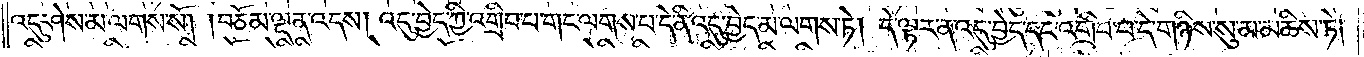འདུ་ཤེས་མ་ལགས་སོ། །བཅོམ་ལྡན་འདས། འདུ་བྱེད་ཀྱི་འགྲིབ་པ་གང་ལགས་པ་དེ་ནི་འདུ་བྱེད་མ་ལགས་ཏེ། དེ་ལྟར་ན་འདུ་བྱེད་དང་འགྲིབ་པ་དེ་གཉིས་སུ་མ་མཆིས་ཏེ་
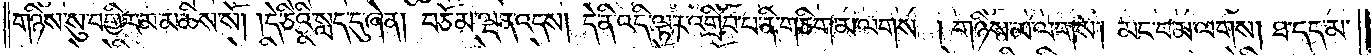གཉིས་སུ་བགྱིར་མ་མཆིས་སོ། །དེ་ཅིའི་སླད་དུ་ཞེ་ན། བཅོམ་ལྡན་འདས། དེ་ནི་འདི་ལྟར་འགྲིབ་པ་ནི་གཅིག་མ་ལགས། གཉིས་མ་ལགས། མང་བ་མ་ལགས། ཐ་དད་མ་
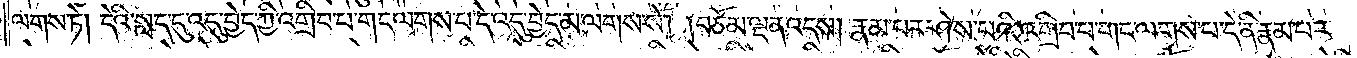ལགས་ཏེ། དེའི་སླད་དུ་འདུ་བྱེད་ཀྱི་འགྲིབ་པ་གང་ལགས་པ་དེ་འདུ་བྱེད་མ་ལགས་སོ། །བཅོམ་ལྡན་འདས། རྣམ་པར་ཤེས་པའི་འགྲིབ་པ་གང་ལགས་པ་དེ་ནི་རྣམ་པར་
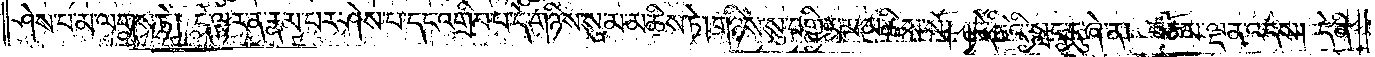ཤེས་པ་མ་ལགས་ཏེ། དེ་ལྟར་ན་རྣམ་པར་ཤེས་པ་དང་འགྲིབ་པ་དེ་གཉིས་སུ་མ་མཆིས་ཏེ། གཉིས་སུ་བགྱིར་མ་མཆིས་སོ། །དེ་ཅིའི་སླད་དུ་ཞེ་ན། བཅོམ་ལྡན་འདས། དེ་ནི་
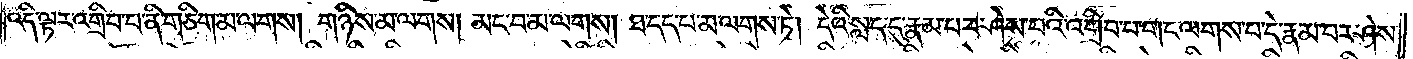འདི་ལྟར་འགྲིབ་པ་ནི་གཅིག་མ་ལགས། གཉིས་མ་ལགས། མང་བ་མ་ལགས། ཐ་དད་པ་མ་ལགས་ཏེ། དེའི་སླད་དུ་རྣམ་པར་ཤེས་པའི་འགྲིབ་པ་གང་ལགས་པ་དེ་རྣམ་པར་ཤེས་
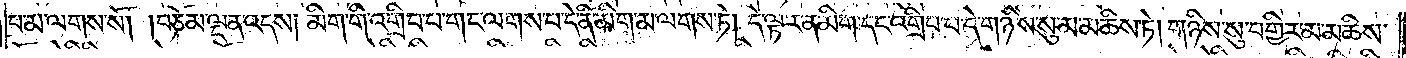པ་མ་ལགས་སོ། །བཅོམ་ལྡན་འདས། མིག་གི་འགྲིབ་པ་གང་ལགས་པ་དེ་ནི་མིག་མ་ལགས་ཏེ། དེ་ལྟར་ན་མིག་དང་འགྲིབ་པ་དེ་གཉིས་སུ་མ་མཆིས་ཏེ། གཉིས་སུ་བགྱིར་མ་མཆིས་
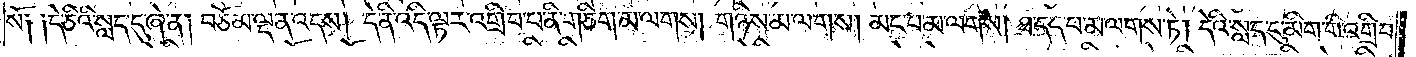སོ༑ ༑དེ་ཅིའི་སླད་དུ་ཞེ་ན། བཅོམ་ལྡན་འདས། དེ་ནི་འདི་ལྟར་འགྲིབ་པ་ནི་གཅིག་མ་ལགས། གཉིས་མ་ལགས། མང་བ་མ་ལགས། ཐ་དད་པ་མ་ལགས་ཏེ། དེའི་སླད་དུ་མིག་གི་འགྲིབ་
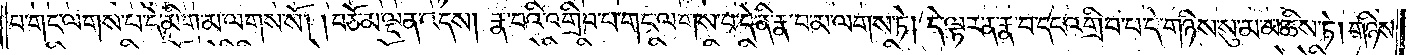པ་གང་ལགས་པ་དེ་མིག་མ་ལགས་སོ། །བཅོམ་ལྡན་འདས། རྣ་བའི་འགྲིབ་པ་གང་ལགས་པ་དེ་ནི་རྣ་བ་མ་ལགས་ཏེ། དེ་ལྟར་ན་རྣ་བ་དང་འགྲིབ་པ་དེ་གཉིས་སུ་མ་མཆིས་ཏེ། གཉིས་
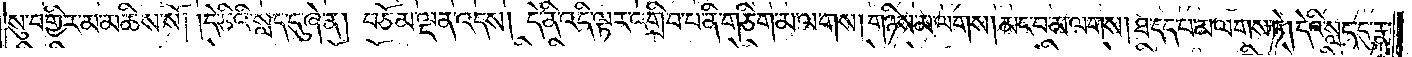སུ་བགྱིར་མ་མཆིས་སོ། །དེ་ཅིའི་སླད་དུ་ཞེ་ན། བཅོམ་ལྡན་འདས། དེ་ནི་འདི་ལྟར་འགྲིབ་པ་ནི་གཅིག་མ་ལགས། གཉིས་མ་ལགས། མང་བ་མ་ལགས། ཐ་དད་པ་མ་ལགས་ཏེ། དེའི་སླད་དུ་རྣ་
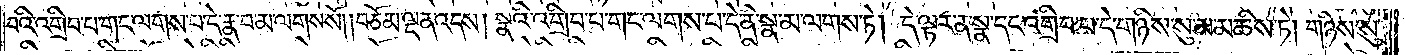བའི་འགྲིབ་པ་གང་ལགས་པ་དེ་རྣ་བ་མ་ལགས་སོ། །བཅོམ་ལྡན་འདས། སྣའི་འགྲིབ་པ་གང་ལགས་པ་དེ་ནི་སྣ་མ་ལགས་ཏེ། དེ་ལྟར་ན་སྣ་དང་འགྲིབ་པ་དེ་གཉིས་སུ་མ་མཆིས་ཏེ། གཉིས་སུ་
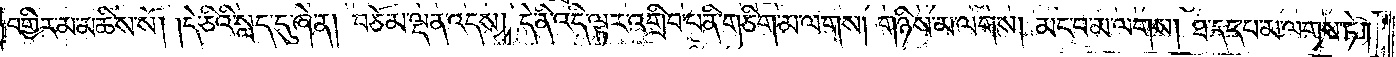བགྱིར་མ་མཆིས་སོ། །དེ་ཅིའི་སླད་དུ་ཞེ་ན། བཅོམ་ལྡན་འདས། དེ་ནི་འདི་ལྟར་འགྲིབ་པ་ནི་གཅིག་མ་ལགས། གཉིས་མ་ལགས། མང་བ་མ་ལགས། ཐ་དད་པ་མ་ལགས་ཏེ།
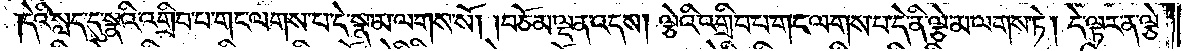དེའི་སླད་དུ་སྣའི་འགྲིབ་པ་གང་ལགས་པ་དེ་སྣ་མ་ལགས་སོ། །བཅོམ་ལྡན་འདས། ལྕེའི་འགྲིབ་པ་གང་ལགས་པ་དེ་ནི་ལྕེ་མ་ལགས་ཏེ། དེ་ལྟར་ན་ལྕེ་
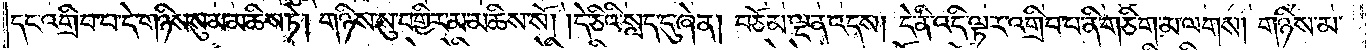དང་འགྲིབ་པ་དེ་གཉིས་སུ་མ་མཆིས་ཏེ། གཉིས་སུ་བགྱིར་མ་མཆིས་སོ། །དེ་ཅིའི་སླད་དུ་ཞེ་ན། བཅོམ་ལྡན་འདས། དེ་ནི་འདི་ལྟར་འགྲིབ་པ་ནི་གཅིག་མ་ལགས། གཉིས་མ་
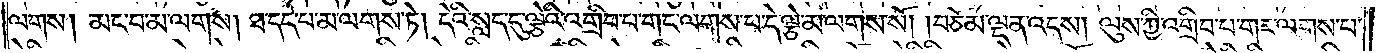ལགས། མང་བ་མ་ལགས། ཐ་དད་པ་མ་ལགས་ཏེ། དེའི་སླད་དུ་ལྕེའི་འགྲིབ་པ་གང་ལགས་པ་དེ་ལྕེ་མ་ལགས་སོ། །བཅོམ་ལྡན་འདས། ལུས་ཀྱི་འགྲིབ་པ་གང་ལགས་པ་
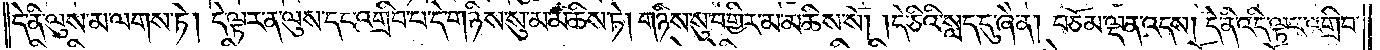དེ་ནི་ལུས་མ་ལགས་ཏེ། དེ་ལྟར་ན་ལུས་དང་འགྲིབ་པ་དེ་གཉིས་སུ་མ་མཆིས་ཏེ། གཉིས་སུ་བགྱིར་མ་མཆིས་སོ། །དེ་ཅིའི་སླད་དུ་ཞེ་ན། བཅོམ་ལྡན་འདས། དེ་ནི་འདི་ལྟར་འགྲིབ་
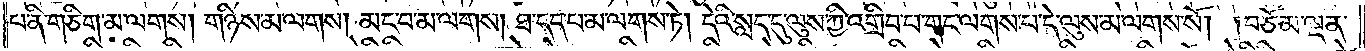པ་ནི་གཅིག་མ་ལགས། གཉིས་མ་ལགས། མང་བ་མ་ལགས། ཐ་དད་པ་མ་ལགས་ཏེ། དེའི་སླད་དུ་ལུས་ཀྱི་འགྲིབ་པ་གང་ལགས་པ་དེ་ལུས་མ་ལགས་སོ། །བཅོམ་ལྡན་
